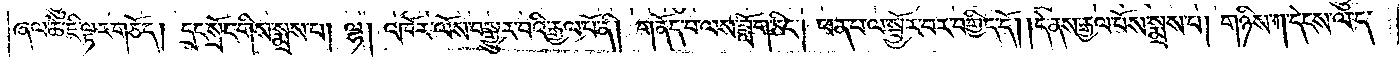ཞལ་ཆེ་ཇི་ལྟར་གཅོད། དྲང་སྲོང་གིས་སྨྲས་པ། ལྷ། འཁོར་ལོས་བསྒྱུར་བའི་རྒྱལ་པོ་ནི། གནོད་པ་ལས་ཟློག་ཅིང༌། ཕན་པ་ལ་སྦྱོར་བར་བགྱིད་དོ། །དེ་ནས་རྒྱལ་པོས་སྨྲས་པ། གཉིས་ཀ་དེངས་ལ་ད་
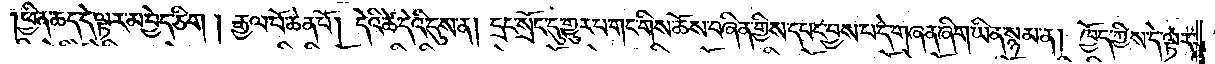།ཕྱིན་ཆད་དེ་ལྟར་མ་བྱེད་ཅིག །རྒྱལ་པོ་ཆེན་པོ། དེའི་ཚེ་དེའི་དུས་ན། དྲང་སྲོང་དུ་གྱུར་པ་གང་གིས་ཆོས་བཞིན་གྱིས་དབང་བྱས་པ་དེ་གཞན་ཞིག་ཡིན་སྙམ་ན། ཁྱོད་ཀྱིས་དེ་ལྟར་
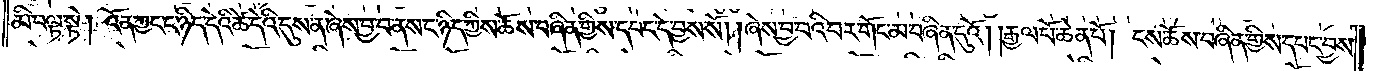མི་བལྟ་སྟེ། འོན་ཀྱང་ང་ཉིད་དེའི་ཚེ་དེའི་དུས་ན་ཞེས་བྱ་བ་ནས་ང་ཉིད་ཀྱིས་ཆོས་བཞིན་གྱིས་དབང་དེ་བྱས་སོ། །ཞེས་བྱ་བའི་བར་གོང་མ་བཞིན་དུའོ། །རྒྱལ་པོ་ཆེན་པོ། ངས་ཆོས་བཞིན་གྱིས་དབང་བྱས་
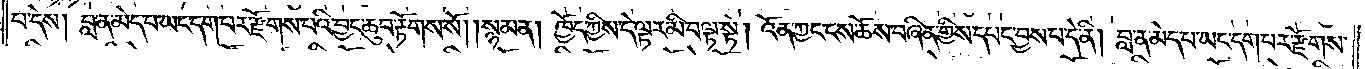བ་དེས། བླ་ན་མེད་པ་ཡང་དག་པར་རྫོགས་པའི་བྱང་ཆུབ་རྟོགས་སོ། །སྙམ་ན། ཁྱོད་ཀྱིས་དེ་ལྟར་མི་བལྟ་སྟེ། འོན་ཀྱང་ངས་ཆོས་བཞིན་གྱིས་དཔང་བྱས་པ་དེ་ནི། བླ་ན་མེད་པ་ཡང་དག་པར་རྫོགས་
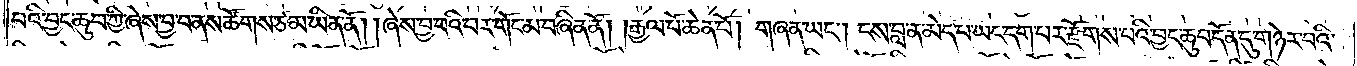པའི་བྱང་ཆུབ་ཀྱི་ཞེས་བྱ་བ་ནས་ཚོགས་ཙམ་ཡིན་ནོ། །ཞེས་བྱ་བའི་བར་གོང་མ་བཞིན་ནོ།    །རྒྱལ་པོ་ཆེན་པོ། གཞན་ཡང༌། ངས་བླ་ན་མེད་པ་ཡང་དག་པར་རྫོགས་པའི་བྱང་ཆུབ་དོན་དུ་གཉེར་བའི་
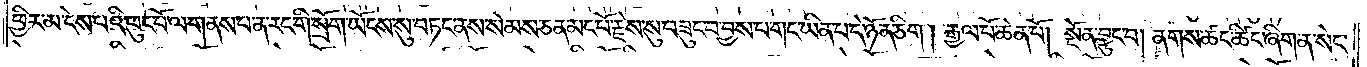ཕྱིར་མ་ངེས་པའི་ཕུང་པོ་ལ་གནས་པ་ན་རང་གི་སྲོག་ཡོངས་སུ་བཏང་ནས་སེམས་ཅན་མང་པོ་རྗེས་སུ་བཟུང་བ་བྱས་པ་གང་ཡིན་པ་དེ་ཉོན་ཅིག །རྒྱལ་པོ་ཆེན་པོ། སྔོན་བྱུང་བ། ནགས་ཚང་ཚིང་ཞིག་ན་སེང་
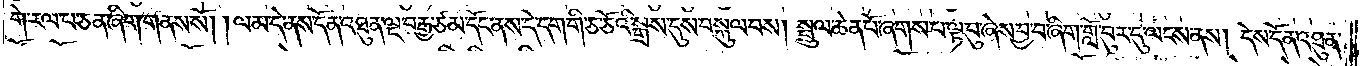གེ་རལ་པ་ཅན་ཞིག་གནས་སོ། །ལམ་དེ་ནས་དོན་འཐུན་ལྔ་བརྒྱ་ཙམ་དོང་ནས་དེ་དག་གི་ཅ་ཅོའི་སྒྲས་དུས་བསྐུལ་བས། སྦྲུལ་ཆེན་པོ་ཞགས་པ་ལྟ་བུ་ཞེས་བྱ་བ་ཞིག་གློ་བུར་དུ་ལངས་ནས། དེས་དོན་འཐུན་
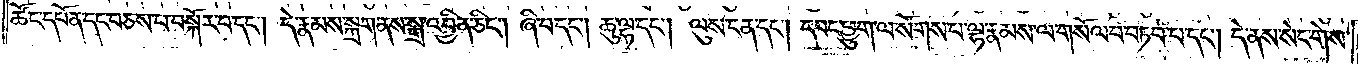ཚོང་དཔོན་དང་བཅས་པ་བསྐོར་བ་དང༌། དེ་རྣམས་སྐྲག་ནས་སྒྲ་འབྱིན་ཅིང༌། ཞི་བ་དང༌། ཆུ་ལྷ་དང༌། ལུས་ངན་དང༌། དབང་ཕྱུག་ལ་སོགས་པ་ལྷ་རྣམས་ལ་གསོལ་བ་བཏབ་པ་དང༌། དེ་ནས་སེང་གེས་
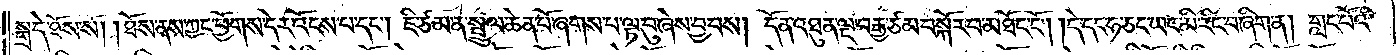སྒྲ་དེ་ཐོས་སོ། །ཐོས་ནས་ཀྱང་ཕྱོགས་དེར་འོངས་པ་དང༌། ཇི་ཙམ་ན་སྦྲུལ་ཆེན་པོ་ཞགས་པ་ལྟ་བུ་ཞས་བྱ་བས། དོན་འཐུན་ལྔ་བརྒྱ་ཙམ་བསྐོར་བ་མཐོང་ངོ༌། །དེ་དང་ཧ་ཡང་མི་རིང་བ་ཞིག་ན། གླང་པོའི་
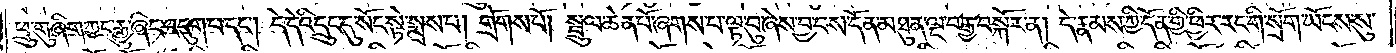ཕྲུ་གུ་ཞིག་ཀྱང་རྒྱུ་ཞིང་འདུག་པ་དང༌། དེ་དེའི་དྲུང་དུ་སོང་སྟེ་སྨྲས་པ། གྲོགས་པོ། སྦྲུལ་ཆེན་པོ་ཞགས་པ་ལྟ་བུ་ཞེས་བྱ་བས་དོན་མཐུན་ལྔ་བརྒྱ་བསྐོར་ན། དེ་རྣམས་ཀྱི་དོན་གྱི་ཕྱིར་རང་གི་སྲོག་ཡོངས་སུ་
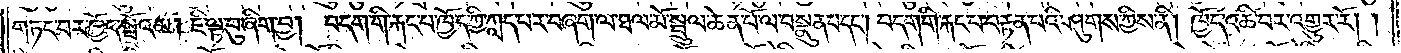གཏང་བར་ཁྱོད་སྤྲོའམ། ཇི་ལྟ་བུ་ཞིག་བྱ། བདག་གི་རྐང་པ་ཁྱོད་ཀྱི་ཀླད་པར་བཞག་ལ་ཐལ་མོ་སྦྲུལ་ཆེན་པོ་ལ་བསྣུན་པ་དང༌། བདག་གི་རྐང་པ་བརྟན་པའི་ཤུགས་ཀྱིས་ནི། ཁྱོད་འཆི་བར་འགྱུར་རོ། །
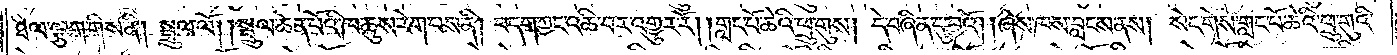ཐལ་ལྕག་གིས་ནི། སྦྲུལ་ལོ། །སྦྲུལ་ཆེན་པོའི་ཁ་ཆུས་རེག་པས་ནི། བདག་ཀྱང་འཆི་བར་འགྱུར་རོ། །གླང་པོ་ཆེའི་ཕྲུ་གུས། དེ་བཞིན་དུ་བྱའོ། །ཞེས་ཁས་བླངས་ནས། སེང་གེས་གླང་པོ་ཆེའི་ཕྲུ་གུའི་
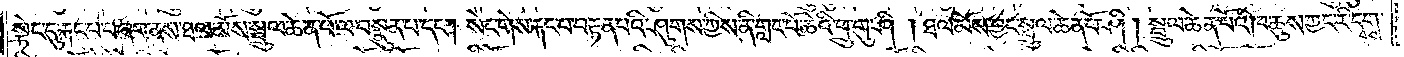སྟེང་དུ་རྐང་པ་བཞག་ནས་ཐལ་མོས་སྦྲུལ་ཆེན་པོ་ལ་བསྣུན་པ་དང༌། སེང་གེས་རྐང་པ་བརྟན་པའི་ཤུགས་ཀྱིས་ནི་གླང་པོ་ཆེའི་ཕྲུ་གུ་ཤི། ཐལ་མོས་ཀྱང་སྦྲུལ་ཆེན་པོ་ཤི་། སྦྲུལ་ཆེན་པོའི་ཁ་ཆུས་ཀྱང་རི་དྭགས་
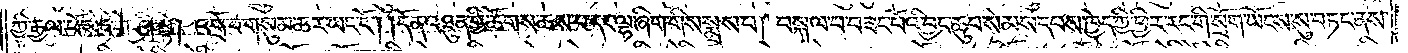ཀྱི་རྒྱལ་པོ་སེང་གེ་ཤི་སྟེ། འགྲོ་བ་གསུམ་ཆར་ཡང་ངོ༌། །དོན་འཐུན་གྱི་ཚོགས་ཆས་པ་དང་ལྷ་ཞིག་གིས་སྨྲས་པ། བསྐལ་པ་བཟང་པོའི་བྱང་ཆུབ་སེམས་དཔས་ཁྱེད་ཀྱི་ཕྱིར་རང་གི་སྲོག་ཡོངས་སུ་བཏང་ནས་
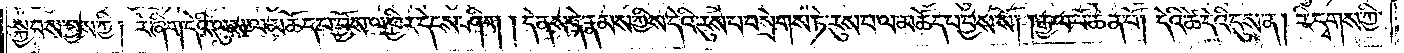སྐྱབས་བྱས་ཀྱི། རེ་ཞིག་དེའི་ལུས་ལ་མཆོད་པ་བྱོས་ལ་ཕྱིར་དེངས་ཤིག། དེ་ནས་དེ་རྣམས་ཀྱིས་དེའི་རུས་པ་བསྲེགས་ཏེ་རུས་པ་ལ་མཆོད་པ་བྱས་སོ། །རྒྱལ་པོ་ཆེན་པོ། དེའི་ཚེ་དེའི་དུས་ན། རི་དྭགས་ཀྱི་
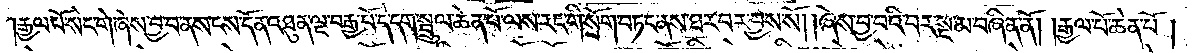རྒྱལ་པོ་སེང་གེ་ཞེས་བྱ་བ་ནས་ངས་དོན་འཐུན་ལྔ་བརྒྱ་པོ་དེ་དག་སྦྲུལ་ཆེན་པོ་ལས་རང་གི་སྲོག་བཏང་ནས་ཐར་པར་བྱས་སོ། །ཞེས་བྱ་བའི་བར་སྔ་མ་བཞིན་ནོ། །རྒྱལ་པོ་ཆེན་པོ།
